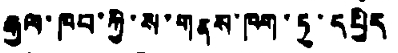རྒྱལ་ཁབ་ཀྱི་ས་གནས་ཁག་ཏུ་དཔྱིད
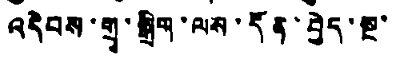འདེབས་གྲྭ་སྒྲིག་ལས་དོན་བྱེད་སྔ་
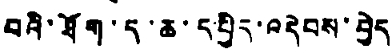བའི་ཐོག་ད་ཆ་དཔྱིད་འདེབས་བྱེད
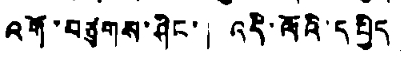འགོ་བཙུགས་ཤིང་། འདི་ལོའི་དཔྱིད་
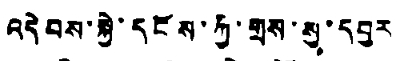འདེབས་སྐྱེ་དངོས་ཀྱི་གྲས་སུ་དབྱར
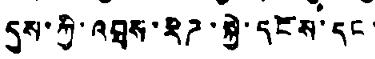དུས་ཀྱི་འབྲས་རིཌ་སྐྱེ་དངོས་དང་།
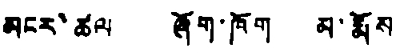མངར་ཚལ ཞོག་ཁོག མ་རྨོས
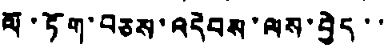ལོ་ཏོག་བཅས་འདེབས་ལས་བྱེད་་
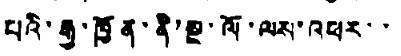པའི་རྒྱ་ཁྱོན་ནི་སྔ་ལོ་ལས་འཕར་་
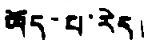ཡོད་པ་རེད།
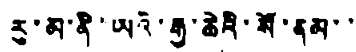རུ་མ་ནི་ཡའི་རྒྱ་ཆེའི་སོ་ནམ་་
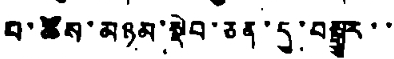པ་ཚོས་མཉམ་སྡེབ་ཅན་དུ་བསྒྱུར་་
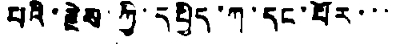པའི་རྗེས་ཀྱི་དཔྱིད་ཀ་དང་པོར་་་
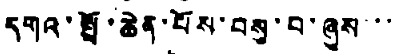དགའ་སྤྲོ་ཆེན་པོས་བསུ་བ་ཞུས་་་
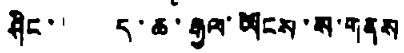ཤིང་། ད་ཆ་རྒྱལ་ཡོངས་ས་གནས
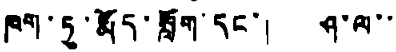ཁག་ཏུ་རྨོད་སློག་དང་། ཤ་ལ་་
